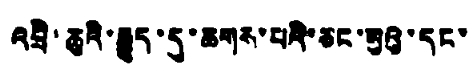འབྲི་ཆུའི་རྒྱུད་དུ་ཆགས་པའི་ཅང་སུའུ་དང་
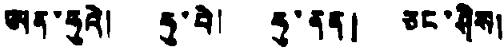ཨན་ཧུའེ། ཧུ་པེ། ཧུ་ནན། ཅང་ཤིས།
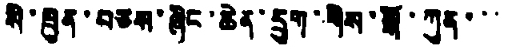སི་ཁྲུན་བཅས་ཞིང་ཆེན་དྲུག་གིས་སྒོ་ཀུན་་་
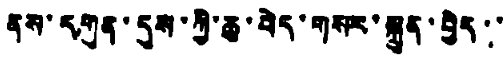ནས་དགུན་དུས་ཀྱི་ཆུ་བེད་གསར་སྐྲུན་བྱེད་་
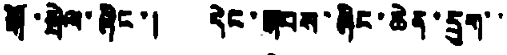སྒོ་སྤེལ་ཞིང་། དེང་སྐབས་ཞིང་ཆེན་དྲུག་་
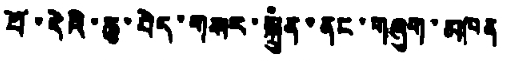པོ་དེའི་ཆུ་བེད་གསར་སྐྲུན་ནང་གཞུག་མཁན
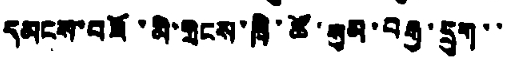དམངས་བཟོ་མི་གྲངས་ཁྲི་ཚོ་སུམ་བརྒྱ་དྲུག་་
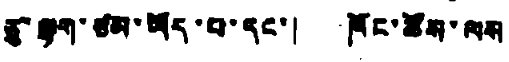ཅུ་ལྷག་ཙམ་ཡོད་པ་དང་། ཁོང་ཚོས་ལས
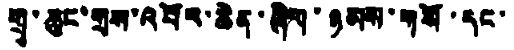གྲྭ་ཆུང་གྲས་འབོར་ཆེན་ཞིག་ཉམས་གསོ་དང་
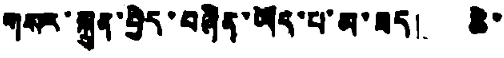གསར་སྐྲུན་བྱེད་བཞིན་ཡོད་པ་མ་ཟད། ཆེ་
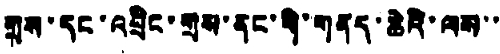གྲས་དང་འབྲིང་གྲས་ནང་གི་གནད་ཆེའི་ལས་་
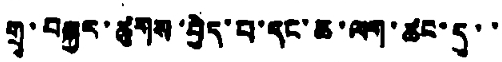གྲྭ་བསྐྱར་ཚུགས་བྱེད་པ་དང་ཆ་ལག་ཚང་དུ་་
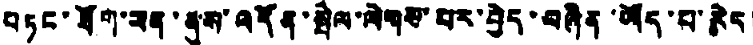བཏང་ཐོག་ཕན་ནུས་འདོན་སྤེལ་ལེགས་པར་བྱེད་བཞིན་ཡོད་པ་རེད།
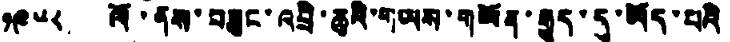༡༩༥༨ ལོ་ནས་བཟུང་འབྲི་ཆུའི་གཡས་གཡོན་རྒྱུད་དུ་ཡོད་པའི་
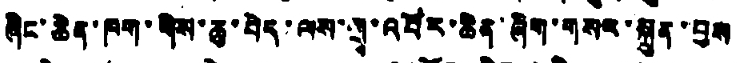ཞིང་ཆེན་ཁག་གིས་ཆུ་བེད་ལས་གྲྭ་འབོར་ཆེན་ཞིག་གསར་སྐྲུན་བྱས་
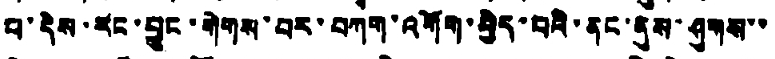པ་དེས་རང་བྱུང་གེགས་བར་བཀག་འགོག་བྱེད་པའི་ནང་ནུས་ཤུགས་་
